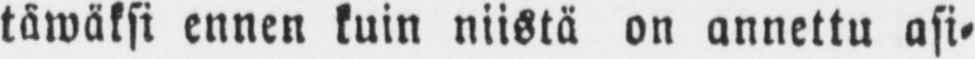täwäksi ennen kuin niistä on annettu asi-
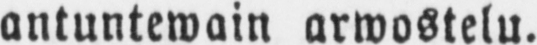antuntewain arwostelu.
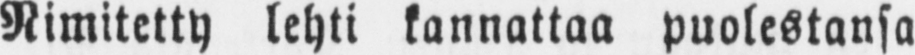Nimitetty lehti kannattaa puolestansa
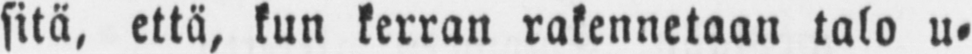sitä, että, kun kerran rakennetaan talo u-
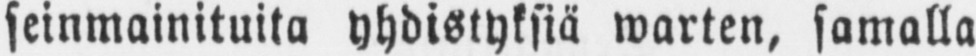seinmainituita yhdistyksiä warten, samalla
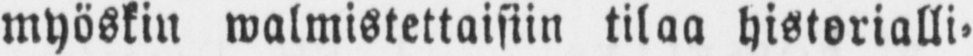myöskin walmistettaisiin tilaa historialli-
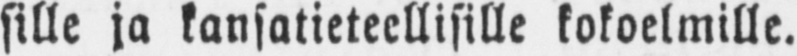sille ja kansatieteellisille kokoelmille.
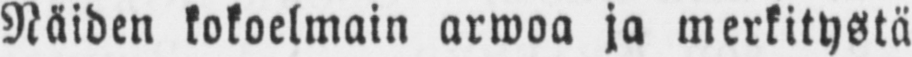Näiden kokoelmain arwoa ja merkitystä
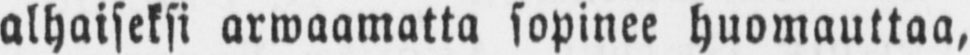alhaiseksi arwaamatta sopinee huomauttaa,
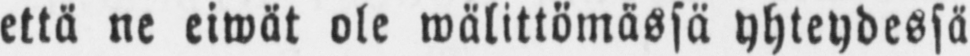että ne eiwät ole wälittömässä yhteydessä
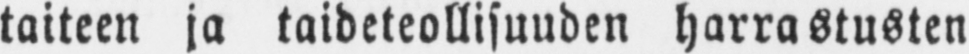taiteen ja taideteollisuuden harrastusten
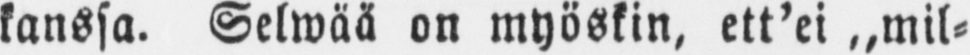kanssa. Selwää on myöskin, ett'ei „mil-
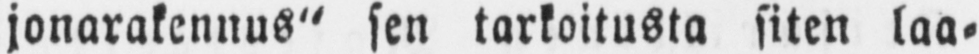jonarakennus" sen tarkoitusta siten laa-
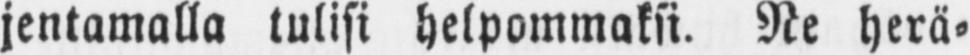jentamalla tulisi helpommaksi. Ne herä-
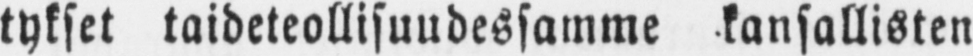tykset taideteollisuudessamme kansallisten
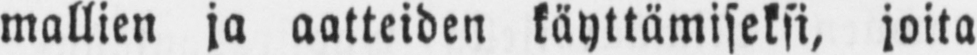mallien ja aatteiden käyttämiseksi, joita
